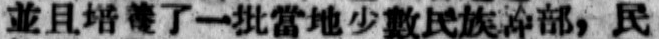並且培養了一批當地少數民族幹部，民
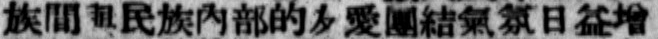族間與民族內部的友愛團結氣氛日益增
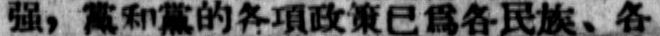強，黨和黨的各項政策已爲各民族、各
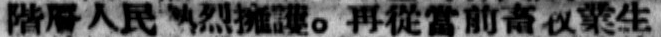階層人民熱烈擁護。再從當前畜牧業生
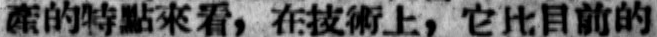產的特點來看，在技術上，它比目前的
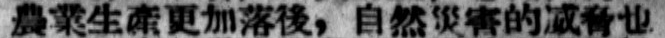農業生產更加落後，自然災害的威脅也
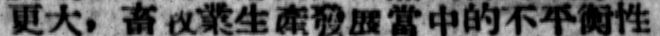更大，畜牧業生產發展當中的不平衡性
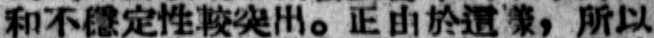和不穩定性較突出。正由於這樣，所以
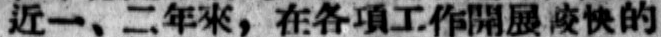近一、二年來，在各項工作開展較快的
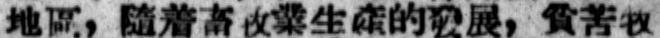地區，隨着畜牧業生產的發展，貧苦牧
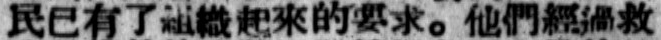民已有了組織起來的要求。他們經過救
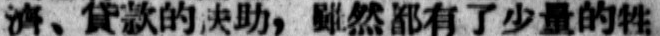濟、貸款的扶助，雖然都有了少量的牲
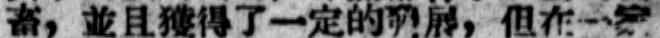畜，並且獲得了一定的發展，但在一家
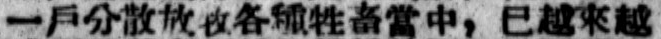一戶分散放牧各種牲畜當中，已越來越
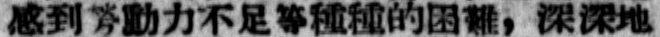感到勞動力不足等種種的困難，深深地
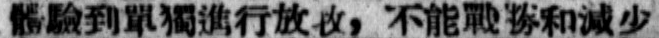體驗到單獨進行放牧，不能戰勝和減少
